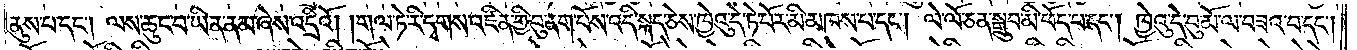ནུས་པ་དང༌། ལས་ཆུང་བ་ཡིན་ནམ་ཞེས་འདྲིའོ། །གལ་ཏེ་རི་དྭགས་འཛིན་གྱི་བུ་ནག་པོས་འདི་སྐད་ཅེས་ཁྱེའུ་དེ་ཏེ་པོར་མི་མཁས་པ་དང༌། ལེ་ལོ་ཅན་སྒྲུབ་མི་ཕོད་པ་དང༌། ཁྱེའུ་དེ་བུ་མོ་ལ་བཟའ་བ་དང༌།
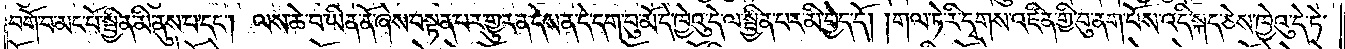བགོ་བ་མང་པོ་སྦྱིན་མི་ནུས་པ་དང༌། ལས་ཆེ་བ་ཡིན་ནོ་ཞེས་བསྟན་པར་གྱུར་ན་དེས་ན་དེ་དག་བུ་མོ་དེ་ཁྱེའུ་དེ་ལ་སྦྱིན་པར་མི་བྱེད་དོ། །གལ་ཏེ་རི་དྭགས་འཛིན་གྱི་བུ་ནག་པོས་འདི་སྐད་ཅེས་ཁྱེའུ་དེ་ཏེ་
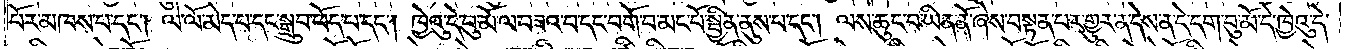པོར་མཁས་པ་དང༌། ལེ་ལོ་མེད་པ་དང་སྒྲུབ་ཕོད་པ་དང༌། ཁྱེའུ་དེ་བུ་མོ་ལ་བཟའ་བ་དང་བགོ་བ་མང་པོ་སྦྱིན་ནུས་པ་དང༌། ལས་ཆུང་བ་ཡིན་ནོ་ཞེས་བསྟན་པར་གྱུར་ན་དེས་ན་དེ་དག་བུ་མོ་དེ་ཁྱེའུ་དེ་
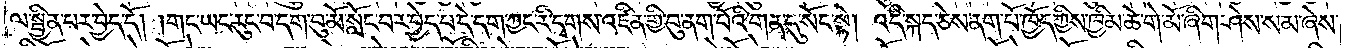ལ་སྦྱིན་པར་བྱེད་དོ། །གང་ཡང་རུང་བ་དག་བུ་མོ་སློང་བར་བྱེད་པ་དེ་དག་ཀྱང་རི་དྭགས་འཛིན་གྱི་བུ་ནག་པོའི་གན་དུ་སོང་སྟེ། འདི་སྐད་ཅེས་ནག་པོ་ཁྱོད་ཀྱིས་ཁྱིམ་ཆེ་གེ་མོ་ཞིག་ཤེས་སམ་ཞེས་
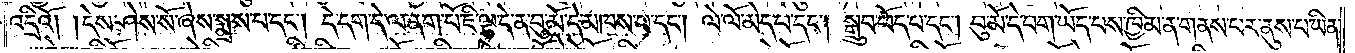འདྲིའོ། །དེས་ཤེས་སོ་ཞེས་སྨྲས་པ་དང༌། དེ་དག་དེ་ལ་ནག་པོ་ཇི་ལྟ་དེ་ན་བུ་མོ་དེ་མཁས་པ་དང༌། ལེ་ལོ་མེད་པ་དང༌། སྒྲུབ་ཕོད་པ་དང༌། བུ་མོ་དེ་བག་ཡོད་པས་ཁྱིམ་ན་གནས་པར་ནུས་པ་ཡིན་
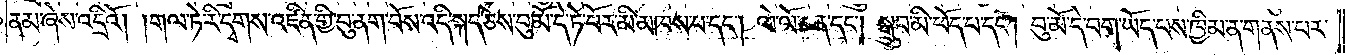ནམ་ཞེས་འདྲིའོ། །གལ་ཏེ་རི་དྭགས་འཛིན་གྱི་བུ་ནག་པོས་འདི་སྐད་ཅེས་བུ་མོ་དེ་ཏེ་པོར་མི་མཁས་པ་དང༌། ལེ་ལོ་ཅན་དང༌། སྒྲུབ་མི་ཕོད་པ་དང༌། བུ་མོ་དེ་བག་ཡོད་པས་ཁྱིམ་ན་གནས་པར་
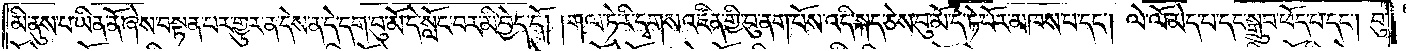མི་ནུས་པ་ཡིན་ནོ་ཞེས་བསྟན་པར་གྱུར་ན་དེས་ན་དེ་དག་བུ་མོ་དེ་སློང་བར་མི་བྱེད་དོ། །གལ་ཏེ་རི་དྭགས་འཛིན་གྱི་བུ་ནག་པོས་འདི་སྐད་ཅེས་བུ་མོ་དེ་ཏེ་པོར་མཁས་པ་དང༌། ལེ་ལོ་མེད་པ་དང་སྒྲུབ་ཕོད་པ་དང༌། བུ་
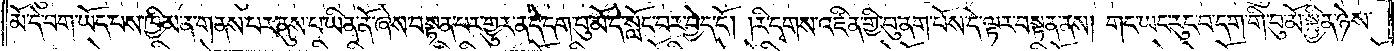མོ་དེ་བག་ཡོད་པས་ཁྱིམ་ན་གནས་པར་ནུས་པ་ཡིན་ནོ་ཞེས་བསྟན་པར་གྱུར་ན་དེ་དག་བུ་མོ་དེ་སློང་བར་བྱེད་དོ། །རི་དྭགས་འཛིན་གྱི་བུ་ནག་པོས་དེ་ལྟར་བསྟན་ནས། གང་ཡང་རུང་བ་དག་གི་བུ་མོ་སྦྱིན་ཉེས་
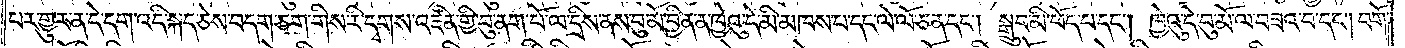པར་གྱུར་ན་དེ་དག་འདི་སྐད་ཅེས་བདག་ཅག་གིས་རི་དྭགས་འཛིན་གྱི་བུ་ནག་པོ་ལ་དྲིས་ནས་བུ་མོ་བྱིན་ན་ཁྱེའུ་དེ་མི་མཁས་པ་དང་ལེ་ལོ་ཅན་དང༌། སྒྲུབ་མི་ཕོད་པ་དང༌། ཁྱེའུ་དེ་བུ་མོ་ལ་བཟའ་བ་དང༌། བགོ་
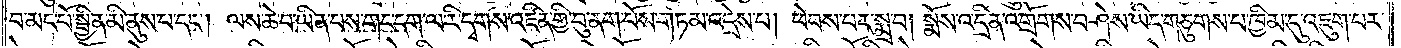བ་མང་པོ་སྦྱིན་མི་ནུས་པ་དང༌། ལས་ཆེ་བ་ཡིན་པས་གང་དག་ལ་རི་དྭགས་འཛིན་གྱི་བུ་ནག་པོས་གཏམ་འདྲེས་པ། ཕེབས་པར་སྨྲ་བ། སྨོས་འདྲིན་འགྲོགས་བཤེས་ཡིད་གཅུགས་པ་ཁྱིམ་དུ་འཇུག་པར་
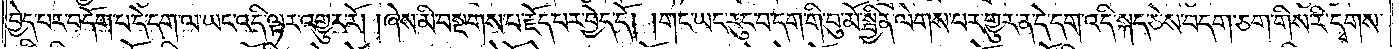བྱེད་པར་བདོག་པ་དེ་དག་ལ་ཡང་འདི་ལྟར་འགྱུར་རོ། །ཞེས་མི་བསྔགས་པ་རྗོད་པར་བྱེད་དོ། །གང་ཡང་རུང་བ་དག་གི་བུ་མོ་སྦྱིན་ལེགས་པར་གྱུར་ན་དེ་དག་འདི་སྐད་ཅེས་བདག་ཅག་གིས་རི་དྭགས་
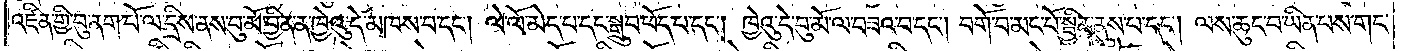འཛིན་གྱི་བུ་ནག་པོ་ལ་དྲིས་ནས་བུ་མོ་བྱིན་ན་ཁྱེའུ་དེ་མཁས་པ་དང༌། ལེ་ལོ་མེད་པ་དང་སྒྲུབ་ཕོད་པ་དང༌། ཁྱེའུ་དེ་བུ་མོ་ལ་བཟའ་བ་དང༌། བགོ་བ་མང་པོ་སྦྱིན་ནུས་པ་དང༌། ལས་ཆུང་བ་ཡིན་པས་གང་
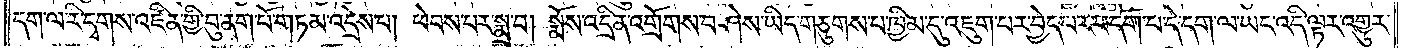དག་ལ་རི་དྭགས་འཛིན་གྱི་བུ་ནག་པོ་གཏམ་འདྲེས་པ། ཕེབས་པར་སྨྲ་བ། སྨོས་འདྲིན་འགྲོགས་བཤེས་ཡིད་གཅུགས་པ་ཁྱིམ་དུ་འཇུག་པར་བྱེད་པར་བདོག་པ་དེ་དག་ལ་ཡང་འདི་ལྟར་འགྱུར་
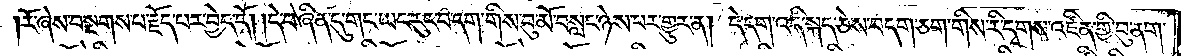།རོ་ཞེས་བསྔགས་པ་རྗོད་པར་བྱེད་དོ། །དེ་བཞིན་དུ་གང་ཡང་རུང་བ་དག་གིས་བུ་མོ་བསླང་ཉེས་པར་གྱུར་ན། དེ་དག་འདི་སྐད་ཅེས་བདག་ཅག་གིས་རི་དྭགས་འཛིན་གྱི་བུ་ནག་
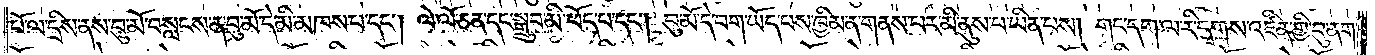པོ་ལ་དྲིས་ནས་བུ་མོ་བསླངས་ན་བུ་མོ་དེ་མི་མཁས་པ་དང༌། ལེ་ལོ་ཅན་དང་སྒྲུབ་མི་ཕོད་པ་དང༌། བུ་མོ་དེ་བག་ཡོད་པས་ཁྱིམ་ན་གནས་པར་མི་ནུས་པ་ཡིན་པས། གང་དག་ལ་རི་དྭགས་འཛིན་གྱི་བུ་ནག་
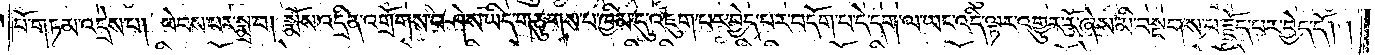པོ་གཏམ་འདྲེས་པ། ཕེབས་པར་སྨྲ་བ། སྨོས་འདྲིན་འགྲོགས་བཤེས་ཡིད་གཅུགས་པ་ཁྱིམ་དུ་འཇུག་པར་བྱེད་པར་བདོག་པ་དེ་དག་ལ་ཡང་འདི་ལྟར་འགྱུར་རོ་ཞེས་མི་བསྔགས་པ་རྗོད་པར་བྱེད་དོ། །
